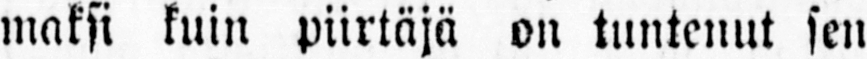maksi kuin piirtäjä on tuntenut sen
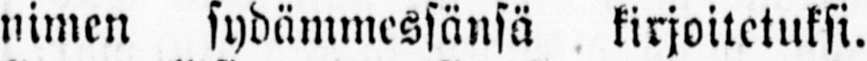nimen sydämmessänsä kirjoitetuksi.
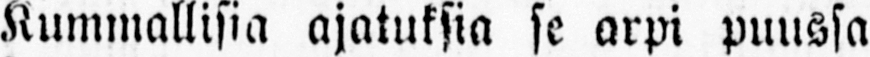Kummallisia ajatuksia se arpi puussa
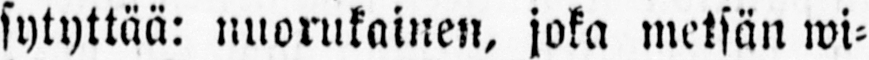sytyttää: nuorukainen, joka metsän wi-
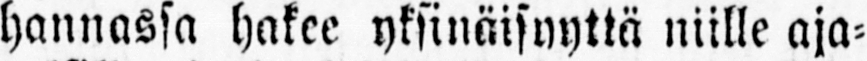hannassa hakee yksinäisyyttä niille aja-
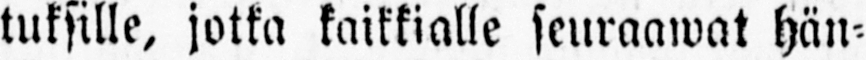tuksille, jotka kaikkialle seuraawat hän-
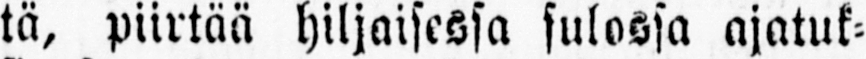tä, piirtää hiljaisessa sulossa ajatuk-
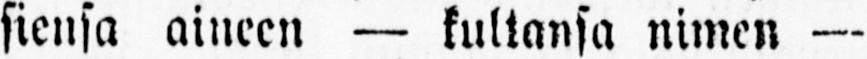siensa aineen — kultansa nimen —
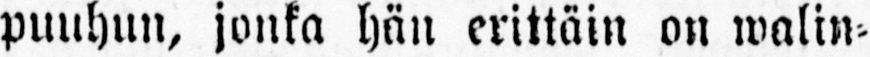puuhun, jonka hän erittäin on walin-
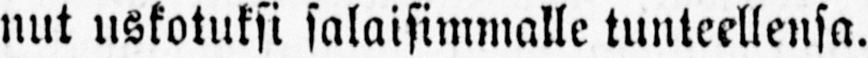nut uskotuksi salaisimmalle tunteellensa.
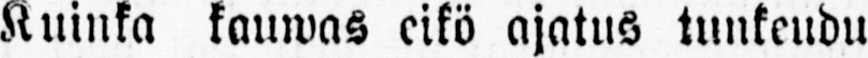Kuinka kauwas eikö ajatus tunkeudu
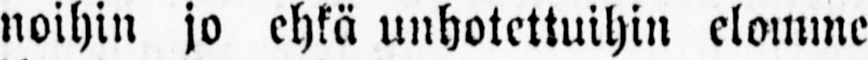noihin jo ehkä unhotettuihin elomme
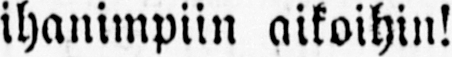ihanimpiin aikoihin!
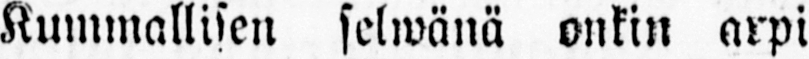Kummallisen selwänä onkin arpi
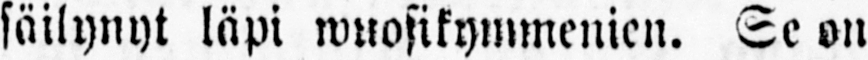säilynyt läpi wuosikymmenien. Se on
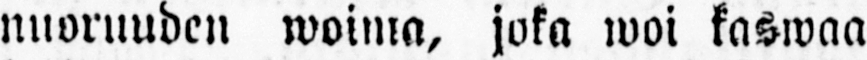nuoruuden woima, joka woi kaswaa
